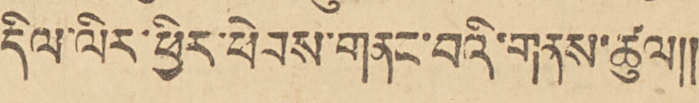དིལ་ལིར་ཕྱིར་ཕེབས་གནང་བའི་གནས་ཚུལ།།
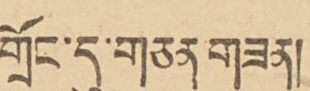གྲོང་དུ་གཅན་གཟན།
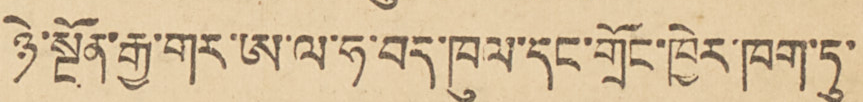ཉེ་སྔོན་རྒྱ་གར་ཨ་ལ་ཧ་བད་ཁུལ་དང་གྲོང་ཁྱེར་ཁག་ཏུ་
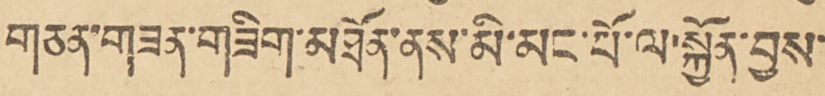གཅན་གཟན་གཟིག་མཐོན་ནས་མི་མང་པོ་ལ་སྐྱོན་བྱས་
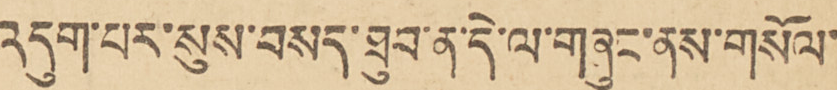འདུག་པར་སུས་བསད་ཐུབ་ན་དེ་ལ་གཞུང་ན་གསོལ་
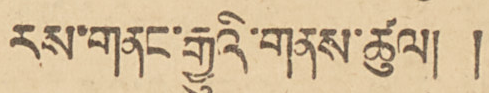རས་གནང་རྒྱུའི་གནས་ཚུལ། །
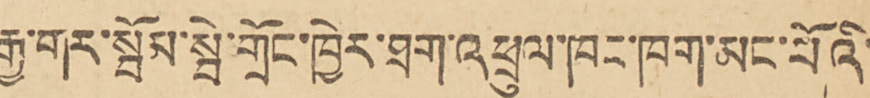རྒྱ་གར་སྦོམ་སྦེ་གྲོང་ཁྱེར་ཐག་འཕྲུལ་ཁང་ཁག་མང་པོའི་
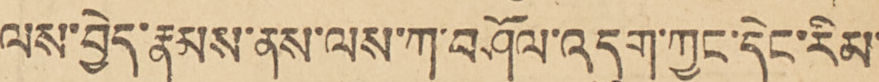ལས་བྱེད་རྣམས་ནས་ལས་ཀ་བཤོལ་འདུག་ཀྱང་དེང་རིམ་
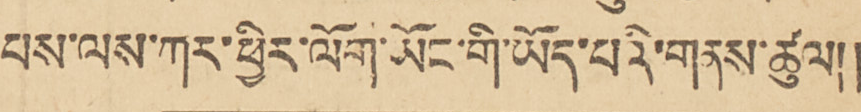པས་ལས་ཀར་ཕྱིར་ལོག་མོང་གི་ཡོད་པའི་གནས་ཚུལ།།
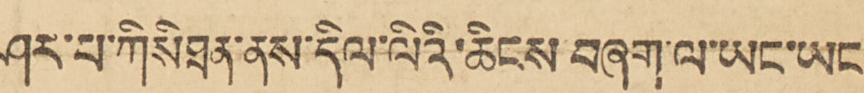ཤར་པ་ཀིསིཐན་ནས་དིལ་ལིའི་ཆིངས་བཞག་ལ་ཡང་ཡང་
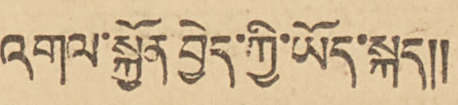འགལ་སྐྱོན་བྱེད་ཀྱི་ཡོད་སྐད།།
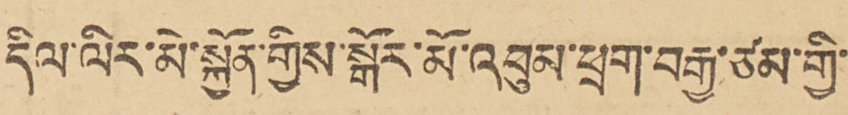དིལ་ལིར་མེ་སྐྱོན་གྱིས་སྒོར་མོ་འབུམ་ཕྲག་བརྒྱ་ཙམ་གྱི་
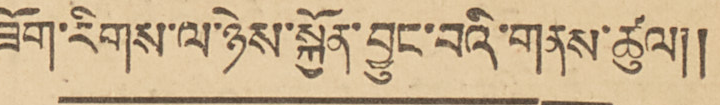ཟོག་རིགས་ལ་ཉེས་སྐྱོན་བྱུང་བའི་གནས་ཚུལ།།
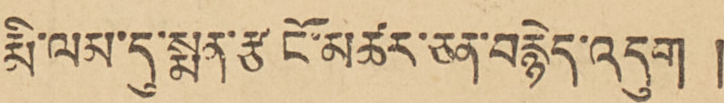རྨི་ལམ་དུ་སྨན་རྩ ངོ་མཚར་ཅན་བརྙེད་འདུག །
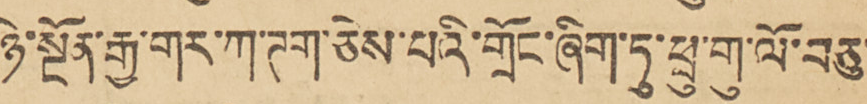ཉེ་སྔོན་རྒྱ་གར་ཀ་ཊག་ཅེས་པའི་གྲོང་ཞིག་ཏུ་ཕྲུ་གུ་ལོ་བཅུ་
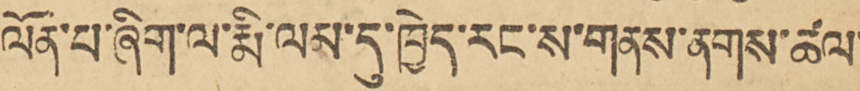ལོན་པ་ཞིག་ལ་རྨི་ལམ་དུ་ཁྱེར་རང་ས་གནས་ནགས་ཚལ་
